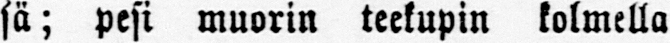sä; pesi muorin teekupin kolmella
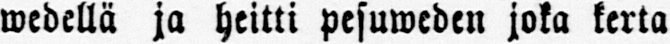wedellä ja heitti pesuweden joka kerta
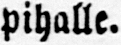pihalle.
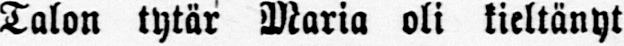Talon tytär Maria oli kieltänyt
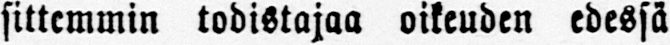sittemmin todistajaa oikeuden edessä
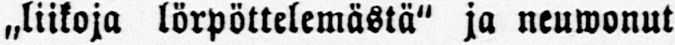˶liikoja lörpöttelemästä" ja neuwonut
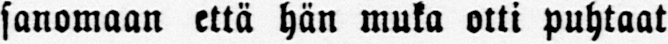sanomaan että hän muka otti puhtaat
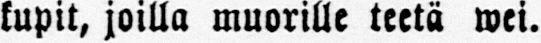kupit, joilla muorille teetä wei.
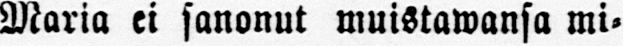Maria ei sanonut muistawansa mi-
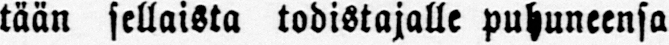tään sellaista todistajalle puhuneensa
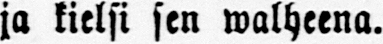ja kielsi sen walheena.
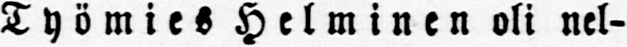Työmies Helminen oli nel-
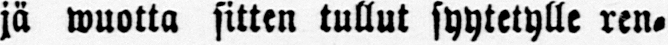jä wuotta sitten tullut syytetylle ren-
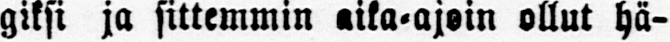giksi ja sittemmin aika-ajoin ollut hä-
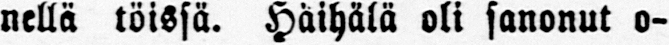nellä töissä. Häihälä oli sanonut o-
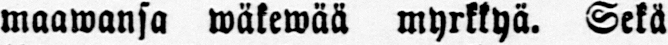maawansa wäkewää myrkkyä. Sekä
